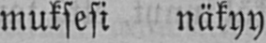muksesi näkyy
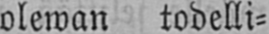olewan todelli-
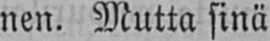nen. Mutta sinä
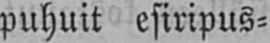puhuit esiripus-
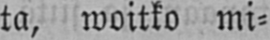ta, woitko mi-
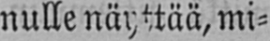nulle näyttää, mi-
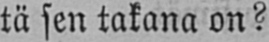tä sen takana on?
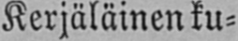Kerjäläinen ku-
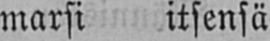marsi itsensä
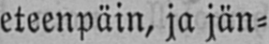eteenpäin, ja jän-
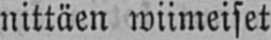nittäen wiimeiset
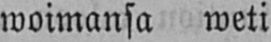woimansa weti
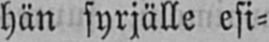hän syrjälle esi-
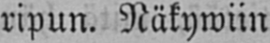ripun. Näkywiin
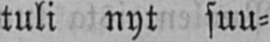tuli nyt suu-
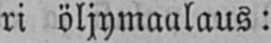ri öljymaalaus:
